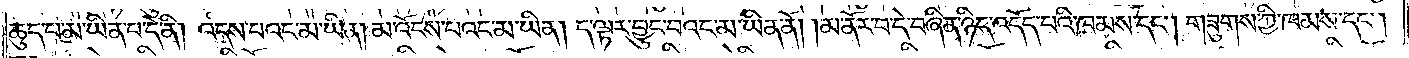ཆུད་པ་མ་ཡིན་པ་དེ་ནི། འདས་པའང་མ་ཡིན། མ་འོངས་པའང་མ་ཡིན། ད་ལྟར་བྱུང་བའང་མ་ཡིན་ནོ། །མ་ནོར་བ་དེ་བཞིན་ཉིད་འདོད་པའི་ཁམས་དང༌། གཟུགས་ཀྱི་ཁམས་དང༌།
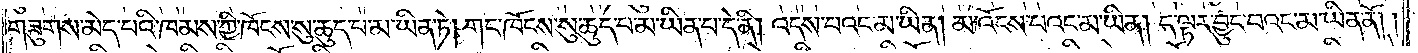གཟུགས་མེད་པའི་ཁམས་ཀྱི་ཁོངས་སུ་ཆུད་པ་མ་ཡིན་ཏེ། གང་ཁོངས་སུ་ཆུད་པ་མ་ཡིན་པ་དེ་ནི། འདས་པའང་མ་ཡིན། མ་འོངས་པའང་མ་ཡིན། ད་ལྟར་བྱུང་བའང་མ་ཡིན་ནོ། །
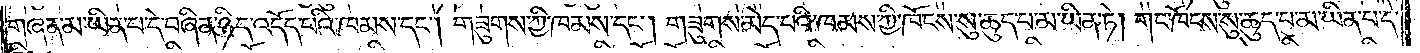གཞན་མ་ཡིན་པ་དེ་བཞིན་ཉིད་འདོད་པའི་ཁམས་དང༌། གཟུགས་ཀྱི་ཁམས་དང༌། གཟུགས་མེད་པའི་ཁམས་ཀྱི་ཁོངས་སུ་ཆུད་པ་མ་ཡིན་ཏེ། གང་ཁོངས་སུ་ཆུད་པ་མ་ཡིན་པ་དེ་
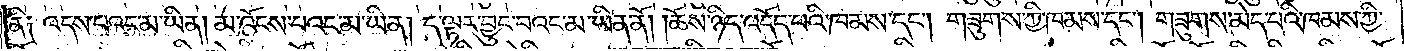ནི༑ འདས་པའང་མ་ཡིན། མ་འོངས་པའང་མ་ཡིན། ད་ལྟར་བྱུང་བའང་མ་ཡིན་ནོ། །ཆོས་ཉིད་འདོད་པའི་ཁམས་དང༌། གཟུགས་ཀྱི་ཁམས་དང༌། གཟུགས་མེད་པའི་ཁམས་ཀྱི་
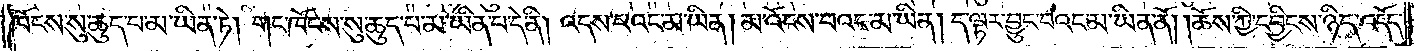ཁོངས་སུ་ཆུད་པ་མ་ཡིན་ཏེ། གང་ཁོངས་སུ་ཆུད་པ་མ་ཡིན་པ་དེ་ནི། འདས་པའང་མ་ཡིན། མ་འོངས་པའང་མ་ཡིན། ད་ལྟར་བྱུང་བའང་མ་ཡིན་ནོ། །ཆོས་ཀྱི་དབྱིངས་ཉིད་འདོད་
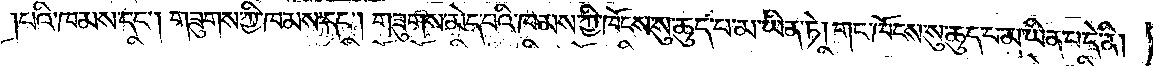པའི་ཁམས་དང༌། གཟུགས་ཀྱི་ཁམས་དང༌། གཟུགས་མེད་པའི་ཁམས་ཀྱི་ཁོངས་སུ་ཆུད་པ་མ་ཡིན་ཏེ། གང་ཁོངས་སུ་ཆུད་པ་མ་ཡིན་པ་དེ་ནི།
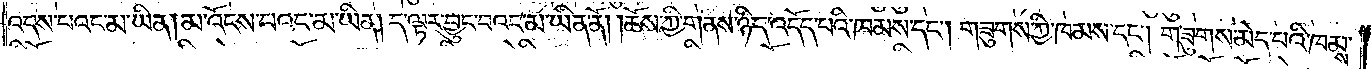འདས་པའང་མ་ཡིན། མ་འོངས་པའང་མ་ཡིན། ད་ལྟར་བྱུང་བའང་མ་ཡིན་ནོ། །ཆོས་ཀྱི་གནས་ཉིད་འདོད་པའི་ཁམས་དང༌། གཟུགས་ཀྱི་ཁམས་དང༌། གཟུགས་མེད་པའི་ཁམས་
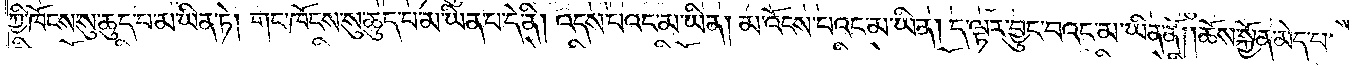ཀྱི་ཁོངས་སུ་ཆུད་པ་མ་ཡིན་ཏེ། གང་ཁོངས་སུ་ཆུད་པ་མ་ཡིན་པ་དེ་ནི། འདས་པའང་མ་ཡིན། མ་འོངས་པའང་མ་ཡིན། ད་ལྟར་བྱུང་བའང་མ་ཡིན་ནོ། །ཆོས་སྐྱོན་མེད་པ་
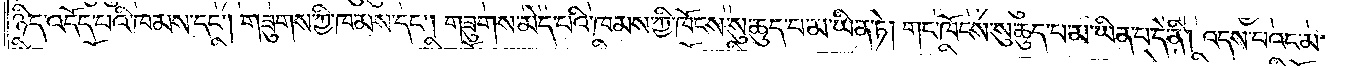ཉིད་འདོད་པའི་ཁམས་དང༌། གཟུགས་ཀྱི་ཁམས་དང༌། གཟུགས་མེད་པའི་ཁམས་ཀྱི་ཁོངས་སུ་ཆུད་པ་མ་ཡིན་ཏེ། གང་ཁོངས་སུ་ཆུད་པ་མ་ཡིན་པ་དེ་ནི། འདས་པའང་མ་
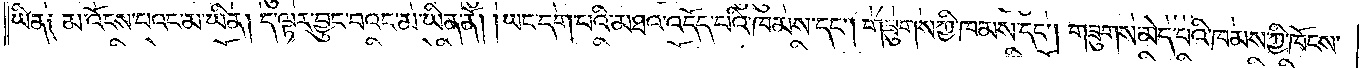ཡིན༑ མ་འོངས་པའང་མ་ཡིན། ད་ལྟར་བྱུང་བའང་མ་ཡིན་ནོ། །ཡང་དག་པའི་མཐའ་འདོད་པའི་ཁམས་དང༌། གཟུགས་ཀྱི་ཁམས་དང༌། གཟུགས་མེད་པའི་ཁམས་ཀྱི་ཁོངས་
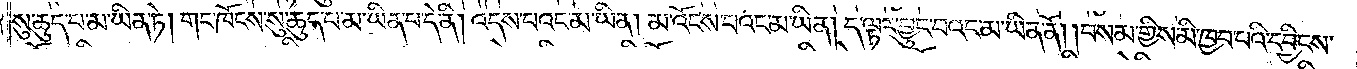སུ་ཆུད་པ་མ་ཡིན་ཏེ། གང་ཁོངས་སུ་ཆུད་པ་མ་ཡིན་པ་དེ་ནི། འདས་པའང་མ་ཡིན། མ་འོངས་པའང་མ་ཡིན། ད་ལྟར་བྱུང་བའང་མ་ཡིན་ནོ། །བསམ་གྱིས་མི་ཁྱབ་པའི་དབྱིངས་
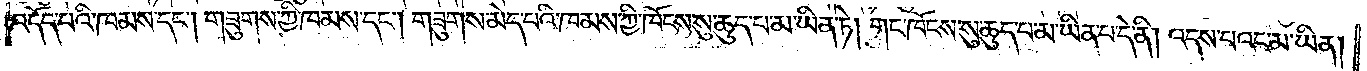འདོད་པའི་ཁམས་དང༌། གཟུགས་ཀྱི་ཁམས་དང༌། གཟུགས་མེད་པའི་ཁམས་ཀྱི་ཁོངས་སུ་ཆུད་པ་མ་ཡིན་ཏེ། གང་ཁོངས་སུ་ཆུད་པ་མ་ཡིན་པ་དེ་ནི། འདས་པའང་མ་ཡིན།
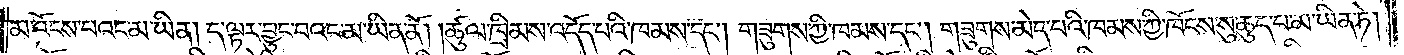མ་འོངས་པའང་མ་ཡིན། ད་ལྟར་བྱུང་བའང་མ་ཡིན་ནོ། །ཚུལ་ཁྲིམས་འདོད་པའི་ཁམས་དང༌། གཟུགས་ཀྱི་ཁམས་དང༌། གཟུགས་མེད་པའི་ཁམས་ཀྱི་ཁོངས་སུ་ཆུད་པ་མ་ཡིན་ཏེ།
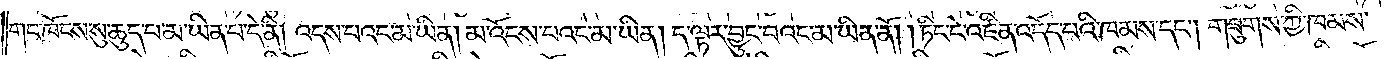གང་ཁོངས་སུ་ཆུད་པ་མ་ཡིན་པ་དེ་ནི། འདས་པའང་མ་ཡིན། མ་འོངས་པའང་མ་ཡིན། ད་ལྟར་བྱུང་བའང་མ་ཡིན་ནོ། །ཏིང་ངེ་འཛིན་འདོད་པའི་ཁམས་དང༌། གཟུགས་ཀྱི་ཁམས་
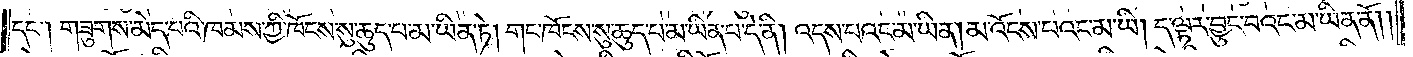དང༌། གཟུགས་མེད་པའི་ཁམས་ཀྱི་ཁོངས་སུ་ཆུད་པ་མ་ཡིན་ཏེ། གང་ཁོངས་སུ་ཆུད་པ་མ་ཡིན་པ་དེ་ནི། འདས་པའང་མ་ཡིན། མ་འོངས་པའང་མ་ཡིན། ད་ལྟར་བྱུང་བའང་མ་ཡིན་ནོ། །
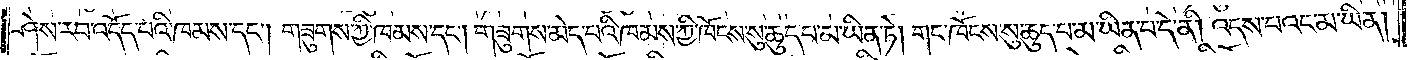ཤེས་རབ་འདོད་པའི་ཁམས་དང༌། གཟུགས་ཀྱི་ཁམས་དང༌། གཟུགས་མེད་པའི་ཁམས་ཀྱི་ཁོངས་སུ་ཆུད་པ་མ་ཡིན་ཏེ། གང་ཁོངས་སུ་ཆུད་པ་མ་ཡིན་པ་དེ་ནི། འདས་པའང་མ་ཡིན།
